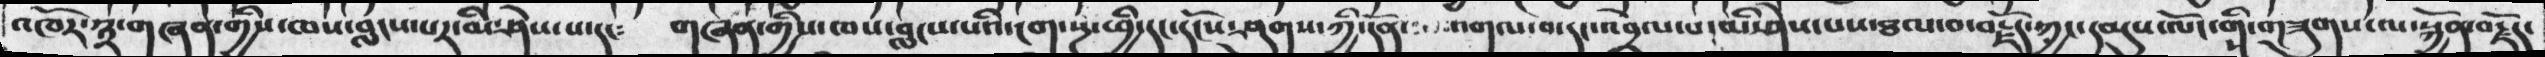འཁོར་༣་གཞན་གྱིས་ཁས་བླངས་པར་མི་ཤེས་པ་དང༴  གཞན་གྱིས་ཁས་བླངས་པའི་ངག་སྔ་ཕྱིར་དངོས་ཤུགས་ཀྱི་དོན་  འགལ་བ་རང་འབྲེལ་པ་མི་ཤེས་པས་ཐལ་བ་བརྗོད་ཀྱང་དམུས་ལོང་གིས་གཟུགས་ལ་སྐྱོན་བརྗོད་
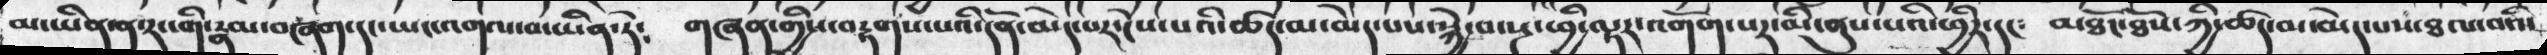མ་ཡིན་ན་རང་གི་རྣམ་བཞག་དང་ཡང་འགལ་བ་ཡིན་ཏེ༴  གཞན་གྱིས་བརྟགས་པའི་དོན་མེད་པར་ངེས་པའི་ཚད་མ་མེད་པས་སྐྱེ་བ་སྔ་ཕྱི་ལྟར་འགོག་པར་མི་ནུས་པའི་ཕྱིར་དང༴   མཐོང་ཐོས་ཀྱི་ཚད་མ་མེད་པས་ཐལ་བའི་
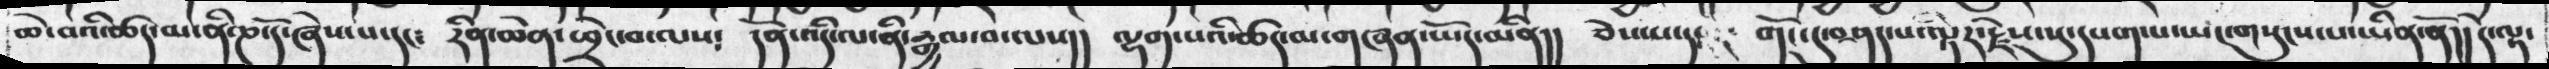ཆེ་བའི་ཚད་མ་ནི་ཎ་དོ་ཞེས་པ་དང༴   རིན་ཆེན་ཕྲེང་བ་ལས༴   དོན་འདི་ལ་ནི་རྒྱལ་བ་ལས།།  ལྷག་པའི་ཚད་མ་གཞན་ཡོད་མིན།།  ཅེས་པ་དང་  གོང་དུ་བཤད་པ་ལྟར་རྗེས་སུ་དཔག་པ་ཡང་གསུངས་པ་ཡིན་ནོ།།  དེ་ལྟ་
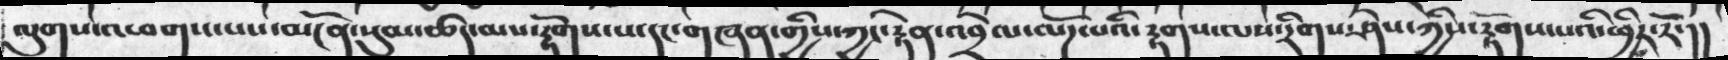ལུགས་འཕགས་པས་མངོན་སུམ་ཚད་མས་རྟོགས་པ་དང་གཞན་གྱིས་ཀྱང་རྟེན་འབྲེལ་ལོཌ་པའི་རྟགས་ལས་རིགས་ཤེས་ཀྱིས་རྟོགས་པའི་ཕྱིར་རོ་།།
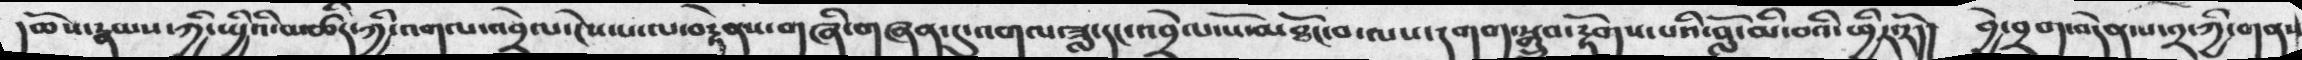།ཆོས་རྣམས་ཀྱི་ཡྱིའི་མཚིད་ཀྱི་འགལ་འབྲེལ་ངེས་པ་ལ་བརྟེན་གཞི་གཞན་དུ་འགལ་ཟླ་དང་འབྲེལ་སོ་མཐོང་བ་ལས་དགག་སྒྲུབ་རྟོགས་པའི་བློ་མི་བའི་ཕྱིར་རོ།།   བྱ་བྲག་བདེན་པ་༢་ཀྱི་གནས
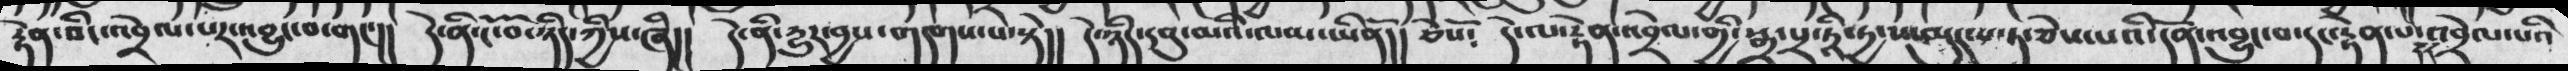རྟེན་ཅིང་འབྲེལ་པར་འབྱུང་བ་གང་།།  དེ་ནི་ངོ་བོ་ཉིད་ཀྱིས་ཞི།།  དེ་ནི་དྱུར་བྱས་གདགས་པ་སྟེ།།  དེ་ཉིད་དབུ་མའི་ལམ་ཡིནོ།།  ཅེསོ༴   དེ་ལ་རྟེན་འབྲེལ་གྱི་སྒྲ་པྲ་ཏྰི་ཏྱ་ས་མུད་པ་ཏ་ཅེས་པའི་དོན་འབྱུང་བ་རང་རྟེན་པ་དང་འབྲེལ་པའི
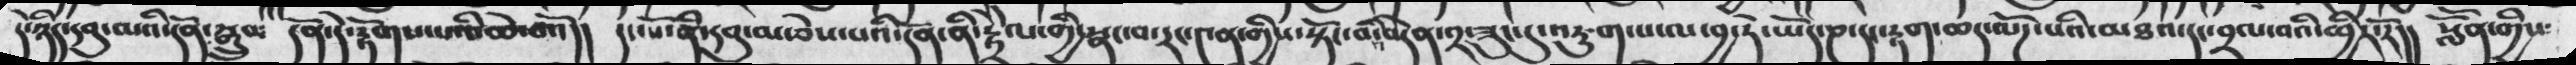དེ་ཉིད་དབུ་མའི་དོན་སྒྲུབ༴  དོན་དེ་རྟོགས་པའི་ཆེ་བའོ།།  །དངོས་ནི་དབུ་མ་ཅེས་པའི་དོན་ནི་རྟྲེིལ་གྱི་སྣང་བ་རང་༤ན་གྱིས་སྟོང་བའི་བདེན་༢་ཟུང་དུ་འཇུག་པ་ལ་བྱ་ཏེ་ཡོད་ཎ་དང་རྟག་ཆད་ལོཌ་པའི་མཐའ་དང་བྲལ་བའི་ཕྱིར་རོ།།  སློན་གྱིས༴
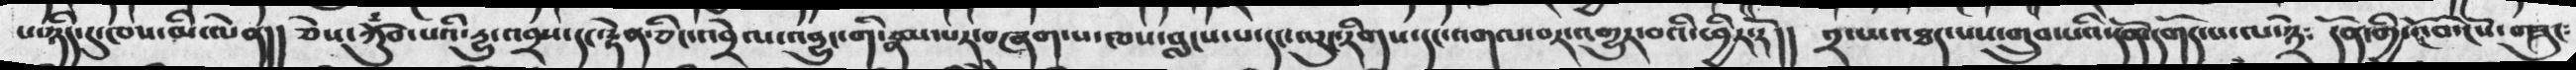པ་ཉིད་དུ་ཁས་མི་ལེན།།   ཅེས་ཀོུྃབ་པའི་དྱུ་འབྲས་དང་རྟེན་ཅིང་འབྲེལ་འབྱུང་གི་རྣམ་པར་བཞག་པ་ཁས་བླངས་པ་དང་ལུང་རིགས་དང་འགལ་བར་འགྱུར་བའི་ཕྱིར་རོ།།  ༢་པ་འཐད་པས་གྲུབ་པའི་དོན་དགོད་པ་ལ་༣ེ༴   དོན་གྱི་ངོ་བོ་ངོས་བཟུང༴
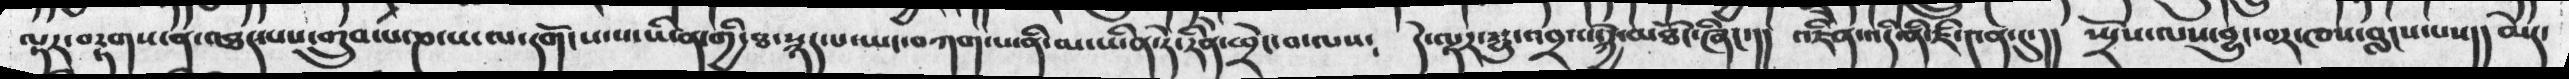ལྟར་བརྟགས་ན་འཐད་པས་གྲུབ་པ་ཎ་པ་ལ་དགོངས་པ་ཡིན་གྱི་ཐ་སྙད་པ་ཡང་བཀག་པ་ནི་མ་ཡིན་ཏེ་རིན་ཕྲེང་བ་ལས༴   དེ་ལྟར་དྱུ་འབྲས་སྐྱེ་མཐོང་ཞིང་།།  འཇིེན་འདི་ནི་ཇི་༤ན་དུ་།།  སྤྲོས་ལས་བྱུང་བར་ཁས་བླངས་པས།།    མེར་
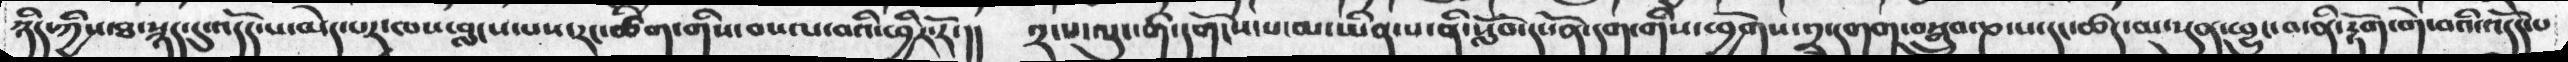ཉིད་ཀྱིས་ཐ་སྙད་དུ་འདོད་པ་མེད་པར་ཁས་བླངས་པས་རང་ཚིག་གིས་བསལ་བའི་ཕྱིར་རོ་།།  ༢་པ་ལུང་གི་དགོངས་པ་མ་ཡིན་པ་ནི་སློབ་དཔོན་དག་གིས་ཕྱོགས་༢་དགག་བསྒྲུབ་ཎ་པ་དང་ཚད་མ་སུན་ཕྱུང་མིན་རྟོག་གེ་བའི་འདོད་པ
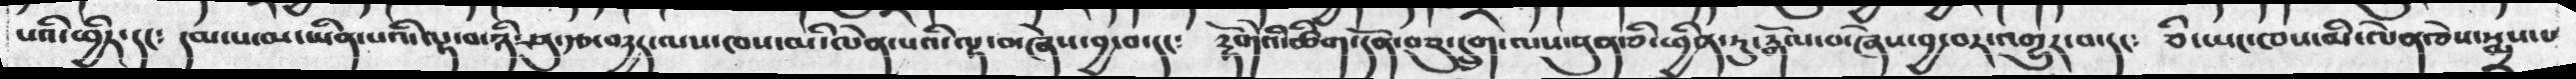པའི་ཕྱིར་དང༴  དམ་པ་མ་ཡིན་པའི་ལྟ་བ་ཉི་ཤུ་རྩ་བདྱད་ལས་ཁས་མི་ལེན་པའི་ལྟ་བ་ཞེས་བྱ་བ་དང༴  རྟོགེའི་ཚིག་དོན་བཅུ་དྲུག་ལས་སུན་ཅི་ཕྱིན་ཏུ་རྒོལ་བ་ཞེས་བྱངབར་འགྱུར་བ་དང༴  ཅི་ཡང་ཁས་མི་ལེན་ཅེས་སྨྲས་པ
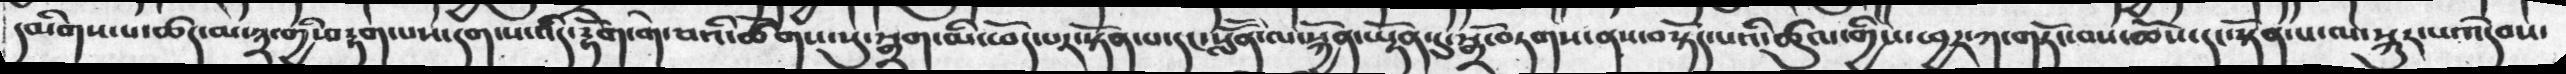དམིགས་པ་ཚད་མ་༣་གྱི་བརྟག་པས་དག་པ་འདི་རྟོག་གེ་བའི་ཚོགས་སུ་སྒྲག་མི་ཕོད་པར་སྟོན་པ་དང་སློོན་ལ་སྐྱོན་ཡྟོན་དུ་སྒྲོ་བཏགས་ནས་བསྟོད་པའི་ཚུལ་གྱིས་ཕྱར་ཀ་གཏོང་བས་ཆོས་དང་སྟོན་པ་ལ་སྐུར་པ་འདེབས་
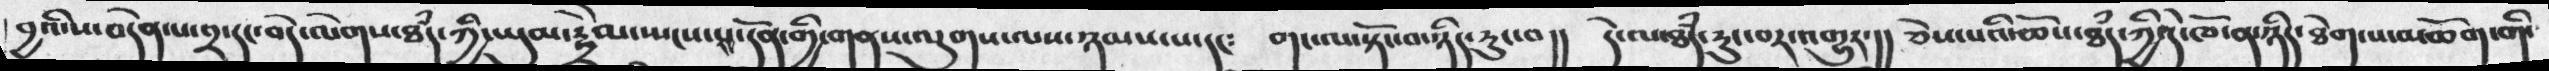བྱའི་ས་བདེན་པ་༢་དང་བདེ་ལེགས་ཐཾད་ཀྱི་ཡུམ་རྟྲེིམ་ཡངས་པས་དོན་གྱི་གནས་ལུགས་ལས་ཉམས་པ་དང༴  གང་ལ་སྟོང་བ་ཉིད་རུང་བ།།  དེ་ལ་ཐཾད་རུང་བར་འགྱུར་།།  ཅེས་པའི་ཆོས་ཐཾད་ཀྱི་དེ་ཁོ་ན་ཉིད་ཐེག་པ་མཆོག་གི་
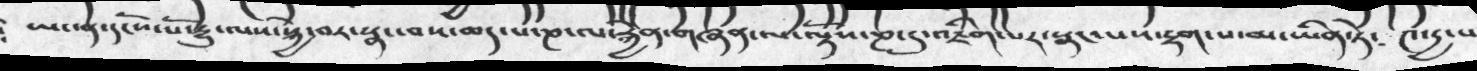ཡང་ན་དངོས་པོ་དྱུ་ལས་སྐྱེ་བར་སྣང་བས་ཆད་པ་ཎ་ལ་རྐྱེན་གཞན་ལ་ལྟོས་ཎ་དུ་འཇིག་པར་སྣང་པས་རྟག་པ་མ་ཡིན་ཏེ༴  ༤་དྱ་པ
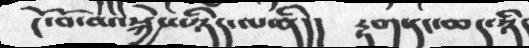ངོ་བོ་མ་སྐྱེས་ཉིད་ལ་ནི།།  རྟག་དང་ཆད་ཉིད
